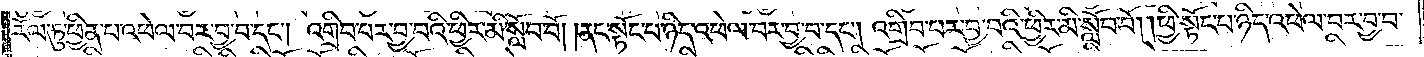རོལ་ཏུ་ཕྱིན་པ་འཕེལ་བར་བྱ་བ་དང༌། འགྲིབ་པར་བྱ་བའི་ཕྱིར་མི་སློབ་བོ། །ནང་སྟོང་པ་ཉིད་འཕེལ་བར་བྱ་བ་དང༌། འགྲིབ་པར་བྱ་བའི་ཕྱིར་མི་སློབ་བོ། །ཕྱི་སྟོང་པ་ཉིད་འཕེལ་བར་བྱ་བ་
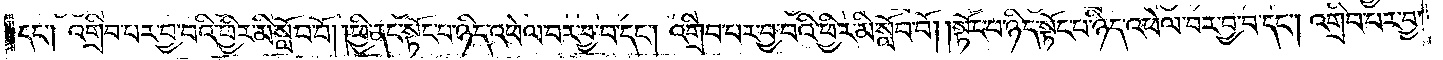དང༌། འགྲིབ་པར་བྱ་བའི་ཕྱིར་མི་སློབ་བོ། ཕྱི་ནང་སྟོང་པ་ཉིད་འཕེལ་བར་བྱ་བ་དང༌། འགྲིབ་པར་བྱ་བའི་ཕྱིར་མི་སློབ་བོ། །སྟོང་པ་ཉིད་སྟོང་པ་ཉིད་འཕེལ་བར་བྱ་བ་དང༌། འགྲིབ་པར་བྱ་
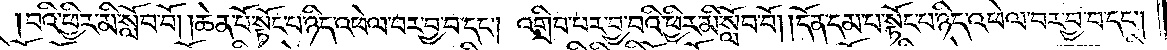བའི་ཕྱིར་མི་སློབ་བོ། །ཆེན་པོ་སྟོང་པ་ཉིད་འཕེལ་བར་བྱ་བ་དང༌། འགྲིབ་པར་བྱ་བའི་ཕྱིར་མི་སློབ་བོ། །དོན་དམ་པ་སྟོང་པ་ཉིད་འཕེལ་བར་བྱ་བ་དང༌།
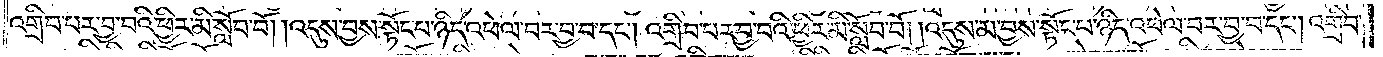འགྲིབ་པར་བྱ་བའི་ཕྱིར་མི་སློབ་བོ། །འདུས་བྱས་སྟོང་པ་ཉིད་འཕེལ་བར་བྱ་བ་དང༌། འགྲིབ་པར་བྱ་བའི་ཕྱིར་མི་སློབ་བོ། །འདུས་མ་བྱས་སྟོང་པ་ཉིད་འཕེལ་བར་བྱ་བ་དང༌། འགྲིབ་
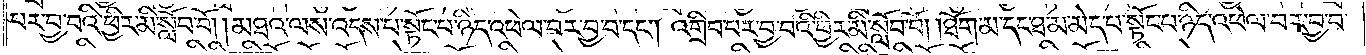པར་བྱ་བའི་ཕྱིར་མི་སློབ་བོ། །མཐའ་ལས་འདས་པ་སྟོང་པ་ཉིད་འཕེལ་བར་བྱ་བ་དང༌། འགྲིབ་པར་བྱ་བའི་ཕྱིར་མི་སློབ་བོ། ཐོག་མ་དང་ཐ་མ་མེད་པ་སྟོང་པ་ཉིད་འཕེལ་བར་བྱ་བ་
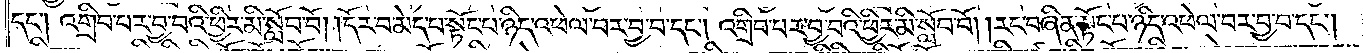དང༌། འགྲིབ་པར་བྱ་བའི་ཕྱིར་མི་སློབ་བོ། །དོར་བ་མེད་པ་སྟོང་པ་ཉིད་འཕེལ་བར་བྱ་བ་དང༌། འགྲིབ་པར་བྱ་བའི་ཕྱིར་མི་སློབ་བོ། །རང་བཞིན་སྟོང་པ་ཉིད་འཕེལ་བར་བྱ་བ་དང༌།
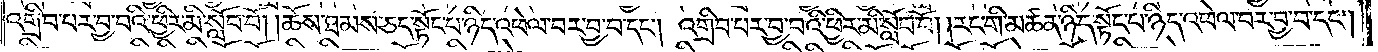འགྲིབ་པར་བྱ་བའི་ཕྱིར་མི་སློབ་བོ། །ཆོས་ཐམས་ཅད་སྟོང་པ་ཉིད་འཕེལ་བར་བྱ་བ་དང༌། འགྲིབ་པར་བྱ་བའི་ཕྱིར་མི་སློབ་བོ། །རང་གི་མཚན་ཉིད་སྟོང་པ་ཉིད་འཕེལ་བར་བྱ་བ་དང༌།
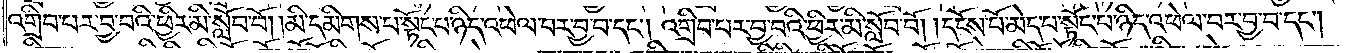འགྲིབ་པར་བྱ་བའི་ཕྱིར་མི་སློབ་བོ། །མི་དམིགས་པ་སྟོང་པ་ཉིད་འཕེལ་བར་བྱ་བ་དང༌། འགྲིབ་པར་བྱ་བའི་ཕྱིར་མི་སློབ་བོ། །དངོས་པོ་མེད་པ་སྟོང་པ་ཉིད་འཕེལ་བར་བྱ་བ་དང༌།
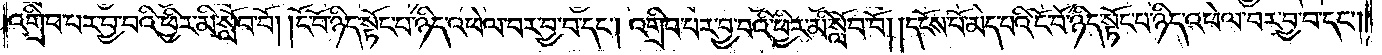འགྲིབ་པར་བྱ་བའི་ཕྱིར་མི་སློབ་བོ། །ངོ་བོ་ཉིད་སྟོང་པ་ཉིད་འཕེལ་བར་བྱ་བ་དང༌། འགྲིབ་པར་བྱ་བའི་ཕྱིར་མི་སློབ་བོ། །དངོས་པོ་མེད་པའི་ངོ་བོ་ཉིད་སྟོང་པ་ཉིད་འཕེལ་བར་བྱ་བ་དང༌།
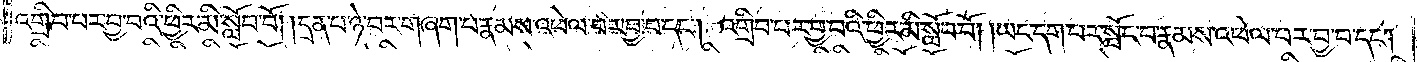འགྲིབ་པར་བྱ་བའི་ཕྱིར་མི་སློབ་བོ། །དྲན་པ་ཉེ་བར་བཞག་པ་རྣམས་འཕེལ་བར་བྱ་བ་དང༌། འགྲིབ་པར་བྱ་བའི་ཕྱིར་མི་སློབ་བོ། །ཡང་དག་པར་སྤོང་བ་རྣམས་འཕེལ་བར་བྱ་བ་དང༌།
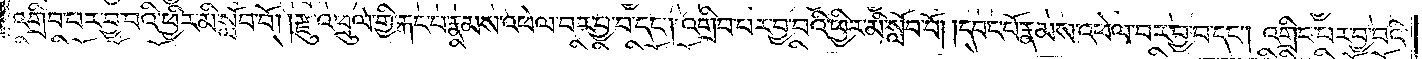འགྲིབ་པར་བྱ་བའི་ཕྱིར་མི་སློབ་བོ། །རྫུ་འཕྲུལ་གྱི་རྐང་པ་རྣམས་འཕེལ་བར་བྱ་བ་དང༌། འགྲིབ་པར་བྱ་བའི་ཕྱིར་མི་སློབ་བོ། ། དབང་པོ་རྣམས་འཕེལ་བར་བྱ་བ་དང༌། འགྲིབ་པར་བྱ་བའི་
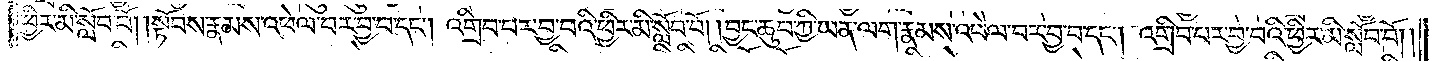ཕྱིར་མི་སློབ་བོ། །སྟོབས་རྣམས་འཕེལ་བར་བྱ་བ་དང༌། འགྲིབ་པར་བྱ་བའི་ཕྱིར་མི་སློབ་བོ། །བྱང་ཆུབ་ཀྱི་ཡན་ལག་རྣམས་འཕེལ་བར་བྱ་བ་དང༌། འགྲིབ་པར་བྱ་བའི་ཕྱིར་མི་སློབ་བོ༎
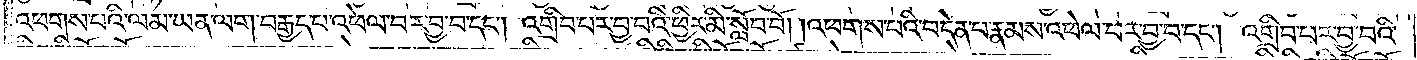འཕགས་པའི་ལམ་ཡན་ལག་བརྒྱད་པ་འཕེལ་བར་བྱ་བ་དང༌། འགྲིབ་པར་བྱ་བའི་ཕྱིར་མི་སློབ་བོ། །འཕགས་པའི་བདེན་པ་རྣམས་འཕེལ་བར་བྱ་བ་དང༌། འགྲིབ་པར་བྱ་བའི་
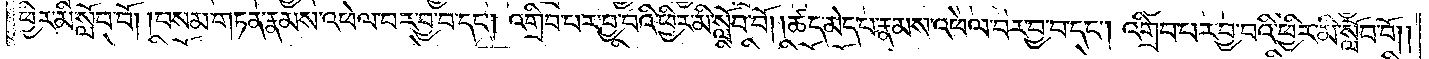ཕྱིར་མི་སློབ་བོ། །བསམ་གཏན་རྣམས་འཕེལ་བར་བྱ་བ་དང༌། འགྲིབ་པར་བྱ་བའི་ཕྱིར་མི་སློབ་བོ། །ཚད་མེད་པ་རྣམས་འཕེལ་བར་བྱ་བ་དང༌། འགྲིབ་པར་བྱ་བའི་ཕྱིར་མི་སློབ་བོ༎
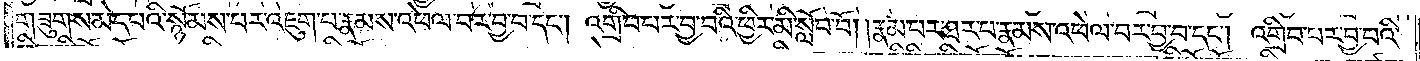གཟུགས་མེད་པའི་སྙོམས་པར་འཇུག་པ་རྣམས་འཕེལ་བར་བྱ་བ་དང༌། འགྲིབ་པར་བྱ་བའི་ཕྱིར་མི་སློབ་བོ། །རྣམ་པར་ཐར་པ་རྣམས་འཕེལ་བར་བྱ་བ་དང༌། འགྲིབ་པར་བྱ་བའི་
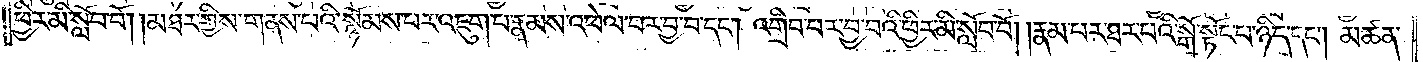ཕྱིར་མི་སློབ་བོ། །མཐར་གྱིས་གནས་པའི་སྙོམས་པར་འཇུག་པ་རྣམས་འཕེལ་བར་བྱ་བ་དང༌། འགྲིབ་པར་བྱ་བའི་ཕྱིར་མི་སློབ་བོ། །རྣམ་པར་ཐར་པའི་སྒོ་སྟོང་པ་ཉིད་དང༌། མཚན་
